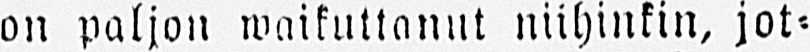on paljon waikuttanut niihinkin, jot-
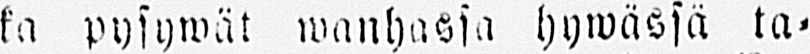ka pysywät wanhassa hywässä ta-
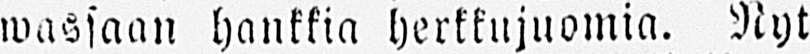wassaan hankkia herkkujuomia. Nyt
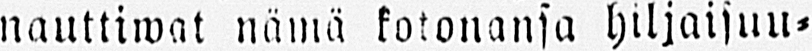nauttiwat nämä kotonansa hiljaisuu-
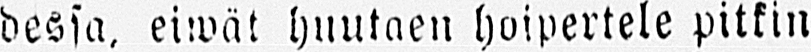dessa, eiwät huutaen hoipertele pitkin
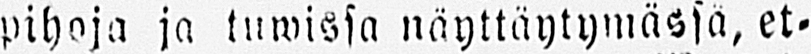pihoja ja tuwissa näyttäytymässä, et-
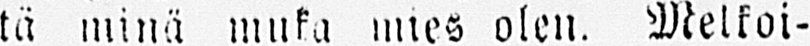tä minä muka mies olen. Melkoi-
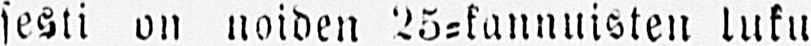sesti on noiden 25-kannuisten luku
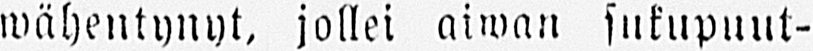wähentynyt, jollei aiwan sukupuut-
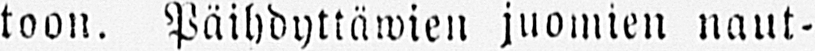toon. Päihdyttäwien juomien naut-
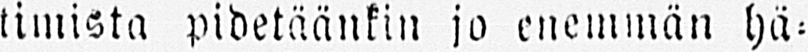timista pidetäänkin jo enemmän hä-
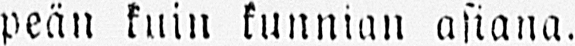peän kuin kunnian asiana.
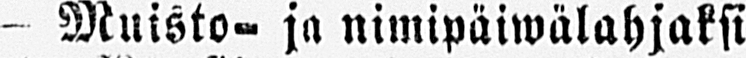- Muisto- ja nimipäiwälahjaksi
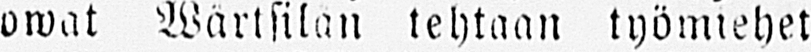owat Wärtsilän tehtaan työmiehet
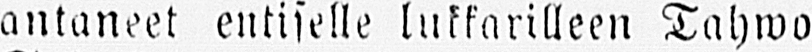antaneet entiselle lukkarilleen Tahwo
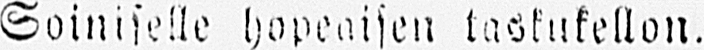Soiniselle hopeaisen taskukellon.
